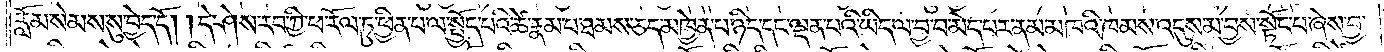རློམ་སེམས་སུ་བྱེད་དོ། །དེ་ཤེས་རབ་ཀྱི་ཕ་རོལ་ཏུ་ཕྱིན་པ་ལ་སྤྱོད་པའི་ཚེ་རྣམ་པ་ཐམས་ཅད་མཁྱེན་པ་ཉིད་དང་ལྡན་པའི་ཡིད་ལ་བྱ་བ་མེད་པར་ནམ་མཁའི་ཁམས་འདུས་མ་བྱས་སྟོང་པ་ཞེས་བྱ་
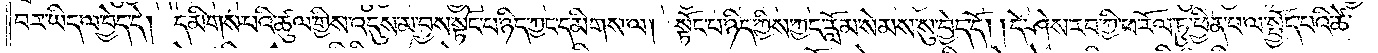བར་ཡིད་ལ་བྱེད་དེ། དམིགས་པའི་ཚུལ་གྱིས་འདུས་མ་བྱས་སྟོང་པ་ཉིད་ཀྱང་དམིགས་ལ། སྟོང་པ་ཉིད་ཀྱིས་ཀྱང་རློམ་སེམས་སུ་བྱེད་དོ། །དེ་ཤེས་རབ་ཀྱི་ཕ་རོལ་ཏུ་ཕྱིན་པ་ལ་སྤྱོད་པའི་ཚེ་
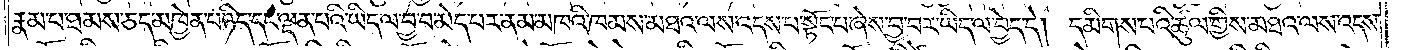རྣམ་པ་ཐམས་ཅད་མཁྱེན་པ་ཉིད་དང་ལྡན་པའི་ཡིད་ལ་བྱ་བ་མེད་པར་ནམ་མཁའི་ཁམས་མཐའ་ལས་འདས་པ་སྟོང་པ་ཞེས་བྱ་བར་ཡིད་ལ་བྱེད་དེ། དམིགས་པའི་ཚུལ་གྱིས་མཐའ་ལས་འདས་
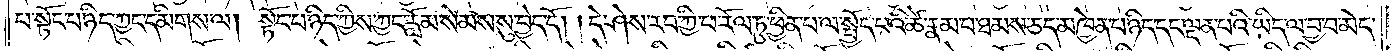པ་སྟོང་པ་ཉིད་ཀྱང་དམིགས་ལ། སྟོང་པ་ཉིད་ཀྱིས་ཀྱང་རློམ་སེམས་སུ་བྱེད་དོ། །དེ་ཤེས་རབ་ཀྱི་ཕ་རོལ་ཏུ་ཕྱིན་པ་ལ་སྤྱོད་པའི་ཚེ་རྣམ་པ་ཐམས་ཅད་མཁྱེན་པ་ཉིད་དང་ལྡན་པའི་ཡིད་ལ་བྱ་བ་མེད་
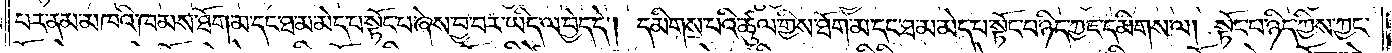པར་ནམ་མཁའི་ཁམས་ཐོག་མ་དང་ཐ་མ་མེད་པ་སྟོང་པ་ཞེས་བྱ་བར་ཡིད་ལ་བྱེད་དེ། དམིགས་པའི་ཚུལ་གྱིས་ཐོག་མ་དང་ཐ་མ་མེད་པ་སྟོང་པ་ཉིད་ཀྱང་དམིགས་ལ། སྟོང་པ་ཉིད་ཀྱིས་ཀྱང་
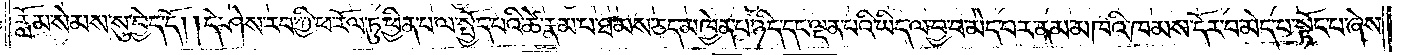རློམ་སེམས་སུ་བྱེད་དོ། །དེ་ཤེས་རབ་ཀྱི་ཕ་རོལ་ཏུ་ཕྱིན་པ་ལ་སྤྱོད་པའི་ཚེ་རྣམ་པ་ཐམས་ཅད་མཁྱེན་པ་ཉིད་དང་ལྡན་པའི་ཡིད་ལ་བྱ་བ་མེད་པར་ནམ་མཁའི་ཁམས་དོར་བ་མེད་པ་སྟོང་པ་ཞེས་
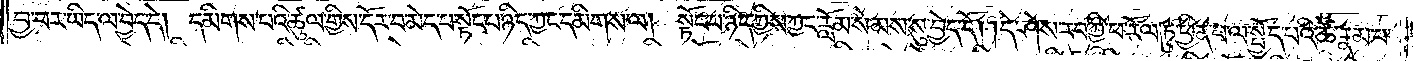བྱ་བར་ཡིད་ལ་བྱེད་དེ། དམིགས་པའི་ཚུལ་གྱིས་དོར་བ་མེད་པ་སྟོང་པ་ཉིད་ཀྱང་དམིགས་ལ། སྟོང་པ་ཉིད་ཀྱིས་ཀྱང་རློམ་སེམས་སུ་བྱེད་དོ། །དེ་ཤེས་རབ་ཀྱི་ཕ་རོལ་ཏུ་ཕྱིན་པ་ལ་སྤྱོད་པའི་ཚེ་རྣམ་པ་
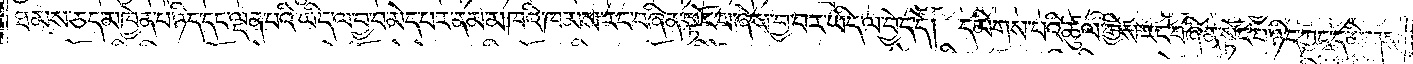ཐམས་ཅད་མཁྱེན་པ་ཉིད་དང་ལྡན་པའི་ཡིད་ལ་བྱ་བ་མེད་པར་ནམ་མཁའི་ཁམས་རང་བཞིན་སྟོང་པ་ཞེས་བྱ་བར་ཡིད་ལ་བྱེད་དེ། དམིགས་པའི་ཚུལ་གྱིས་རང་བཞིན་སྟོང་པ་ཉིད་ཀྱང་དམིགས་
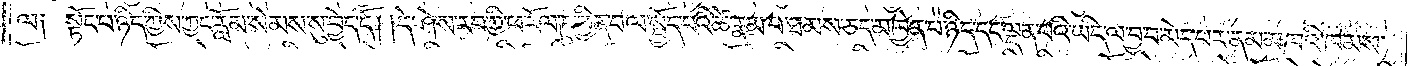ལ༑ སྟོང་པ་ཉིད་ཀྱིས་ཀྱང་རློམ་སེམས་སུ་བྱེད་དོ། །དེ་ཤེས་རབ་ཀྱི་ཕ་རོལ་ཏུ་ཕྱིན་པ་ལ་སྤྱོད་པའི་ཚེ་རྣམ་པ་ཐམས་ཅད་མཁྱེན་པ་ཉིད་དང་ལྡན་པའི་ཡིད་ལ་བྱ་བ་མེད་པར་ནམ་མཁའི་ཁམས་
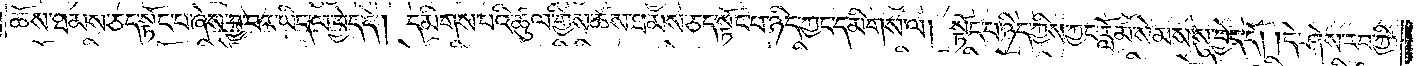ཆོས་ཐམས་ཅད་སྟོང་པ་ཞེས་བྱ་བར་ཡིད་ལ་བྱེད་དེ། དམིགས་པའི་ཚུལ་གྱིས་ཆོས་ཐམས་ཅད་སྟོང་པ་ཉིད་ཀྱང་དམིགས་ལ། སྟོང་པ་ཉིད་ཀྱིས་ཀྱང་རློམ་སེམས་སུ་བྱེད་དོ། །དེ་ཤེས་རབ་ཀྱི་
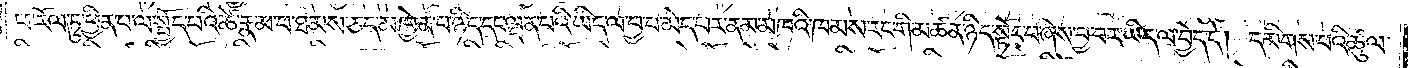ཕ་རོལ་ཏུ་ཕྱིན་པ་ལ་སྤྱོད་པའི་ཚེ་རྣམ་པ་ཐམས་ཅད་མཁྱེན་པ་ཉིད་དང་ལྡན་པའི་ཡིད་ལ་བྱ་བ་མེད་པར་ནམ་མཁའི་ཁམས་རང་གི་མཚན་ཉིད་སྟོང་པ་ཞེས་བྱ་བར་ཡིད་ལ་བྱེད་དེ། དམིགས་པའི་ཚུལ་
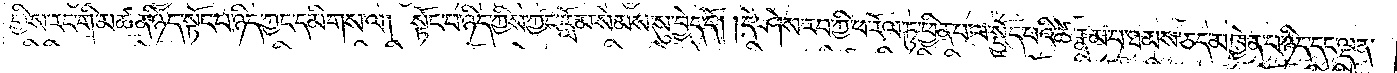གྱིས་རང་གི་མཚན་ཉིད་སྟོང་པ་ཉིད་ཀྱང་དམིགས་ལ། སྟོང་པ་ཉིད་ཀྱིས་ཀྱང་རློམ་སེམས་སུ་བྱེད་དོ། །དེ་ཤེས་རབ་ཀྱི་ཕ་རོལ་ཏུ་ཕྱིན་པ་ལ་སྤྱོད་པའི་ཚེ་རྣམ་པ་ཐམས་ཅད་མཁྱེན་པ་ཉིད་དང་ལྡན་
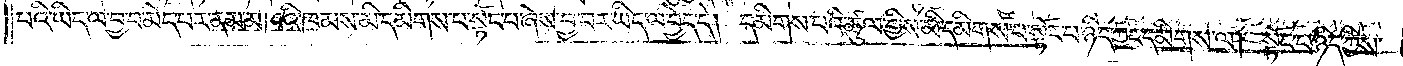པའི་ཡིད་ལ་བྱ་བ་མེད་པར་ནམ་མཁའི་ཁམས་མི་དམིགས་པ་སྟོང་པ་ཞེས་བྱ་བར་ཡིད་ལ་བྱེད་དེ། དམིགས་པའི་ཚུལ་གྱིས་མི་དམིགས་པ་སྟོང་པ་ཉིད་ཀྱང་དམིགས་ལ། སྟོང་པ་ཉིད་ཀྱིས་
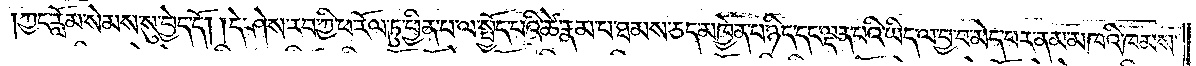ཀྱང་རློམ་སེམས་སུ་བྱེད་དོ། །དེ་ཤེས་རབ་ཀྱི་ཕ་རོལ་ཏུ་ཕྱིན་པ་ལ་སྤྱོད་པའི་ཚེ་རྣམ་པ་ཐམས་ཅད་མཁྱེན་པ་ཉིད་དང་ལྡན་པའི་ཡིད་ལ་བྱ་བ་མེད་པར་ནམ་མཁའི་ཁམས་
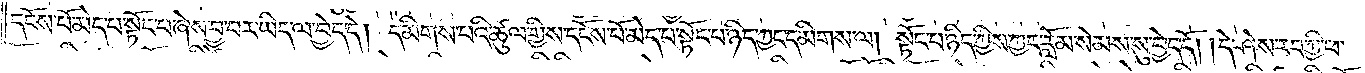དངོས་པོ་མེད་པ་སྟོང་པ་ཞེས་བྱ་བར་ཡིད་ལ་བྱེད་དེ། དམིགས་པའི་ཚུལ་གྱིས་དངོས་པོ་མེད་པ་སྟོང་པ་ཉིད་ཀྱང་དམིགས་ལ། སྟོང་པ་ཉིད་ཀྱིས་ཀྱང་རློམ་སེམས་སུ་བྱེད་དོ། །དེ་ཤེས་རབ་ཀྱི་ཕ་
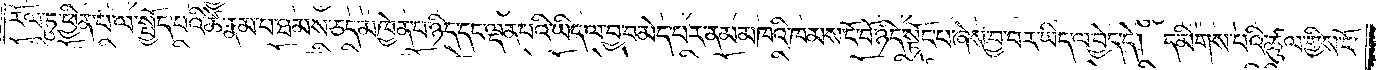རོལ་ཏུ་ཕྱིན་པ་ལ་སྤྱོད་པའི་ཚེ་རྣམ་པ་ཐམས་ཅད་མཁྱེན་པ་ཉིད་དང་ལྡན་པའི་ཡིད་ལ་བྱ་བ་མེད་པར་ནམ་མཁའི་ཁམས་ངོ་བོ་ཉིད་སྟོང་པ་ཞེས་བྱ་བར་ཡིད་ལ་བྱེད་དེ། དམིགས་པའི་ཚུལ་གྱིས་ངོ་
